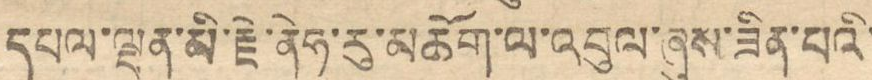དཔལ་ལྡན་མི་རྗེ་ནེཧ་རུ་མཆོག་ལ་འབུལ་ཞུས་ཟིན་པའི་
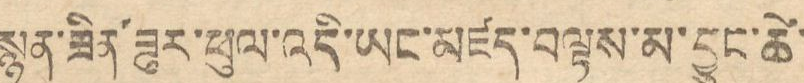སྙན་ཟིན་ཟུར་ཕུལ་འདི་ཡང་མཛད་བལྟས་མ་བྱུང་ཚེ་
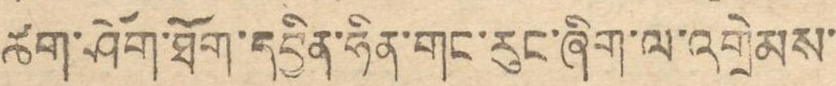ཚག་ཤོག་ཐོག་དབྱིན་ཧིན་གང་རུང་ཞིག་ལ་འགྲེམས་
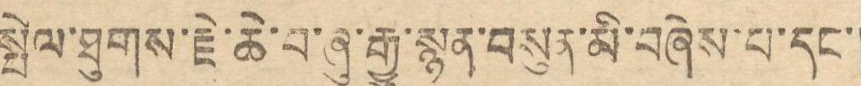སྤེལ་ཐུགས་རྗེ་ཆེ་བ་ཞུ་རྒྱུ་སྙན་བསུན་མི་བཞེས་པ་དང་།
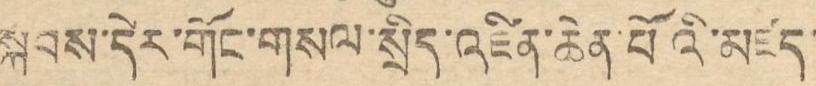སྐབས་དེར་གོང་གསལ་སྲིད་འཛིན་ཆེན་པོའི་མཛད་
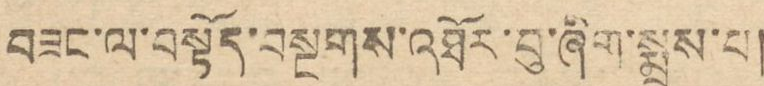བཟང་བསྟོད་བསྔགས་འཐོར་བུ་ཞིག་སྨྲས་པ།
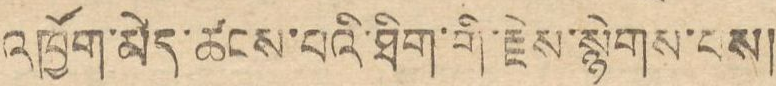འཁྱོག་མེད་ཚངས་པའི་ཐིག་གི་རྗེས་སྙེགས་པས།
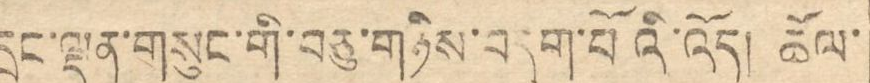དྲང་ལྡན་གསུང་གི་བཅུ་གཉིས་བདག་པོའི་འོད། ཆོལ་
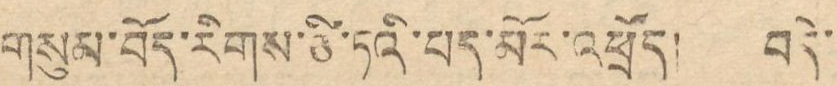གསུམ་བོད་རིགས་ཙི་ཏའི་པད་མོར་འཕྲོད། བདེ་
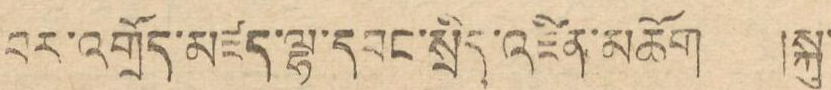བར་འགྲོད་མཛད་ལྷ་དབང་སྲིད་འཛིན་མཆོག །སྐུ་
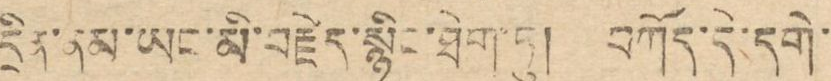དྲིན་ནམ་ཡང་མི་བརྗེད་སྙིང་ཐིག་ཏུ། བཀོད་དེ་དགེ་
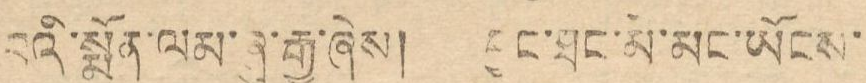བའི་སྨོན་ལམ་ཞུ་རྒྱུ་ཞེས། བྱང་ཐང་མི་མང་ཡོངས་
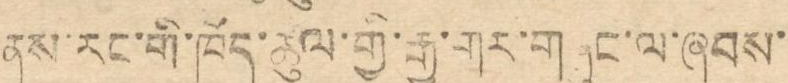ནས་རང་གི་ཁོད་ཚུལ་གྱི་རྒྱ་གར་གཞུང་ལ་ཞབས་
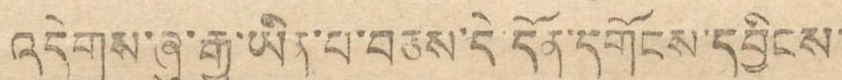འདེགས་ཞུ་རྒྱུ་ཡིན་པ་བཅས་དེ་དོན་དགོངས་དབྱིངས་
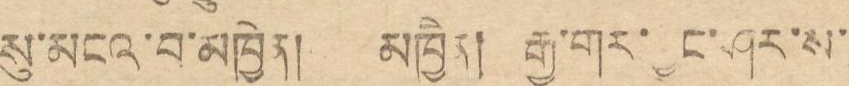སུ་མངའ་བ་མཁྱེན། མཁྱིན། རྒྱ་གར་བྱང་ཤར་ས་
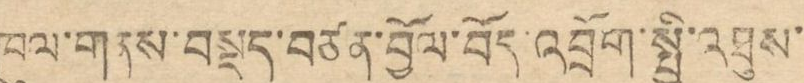ཁུལ་གནས་བསྡད་བཙན་བྱོལ་བོད་འབྲོག་སྤྱི་འཐུས་
